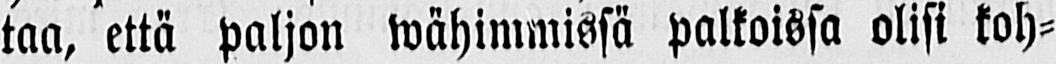taa, että paljon wähimmissä palkoissa olisi koh-
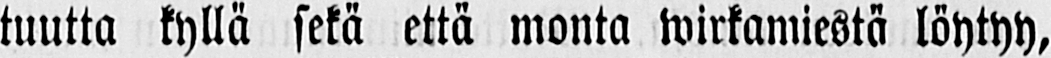tuutta kyllä sekä että monta wirkamiestä löytyy,
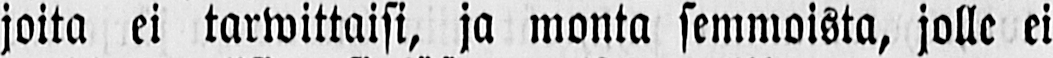joita ei tarwittaisi, ja monta semmoista, jolle ei
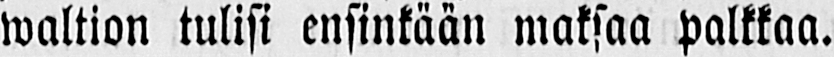waltion tulisi ensinkään maksaa palkkaa.
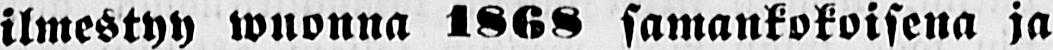ilmestyy wuonna 1868 samankokoisena ja
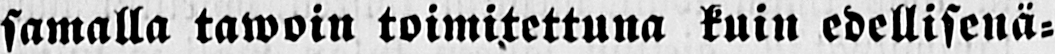samalla tawoin toimitettuna kuin edellisenä-
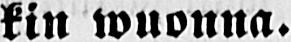kin wuonna.
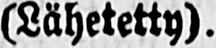(Lähetetty).
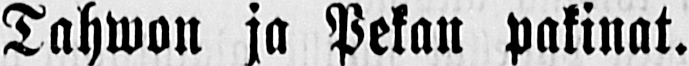Tahwon ja Pekan pakinat.
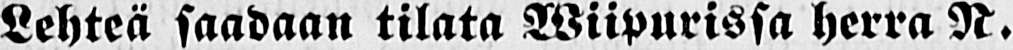Lehteä saadaan tilata Wiipurissa herra N.
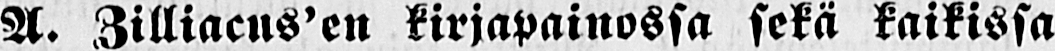A. Zilliacus'en kirjapainossa sekä kaikissa
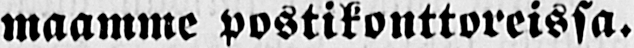maamme postikonttoreissa.
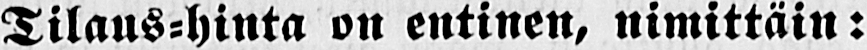Tilaus-hinta on entinen, nimittäin:
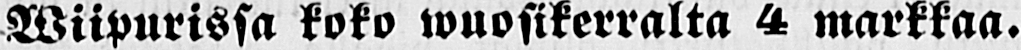Wiipurissa koko wuosikerralta 4 markkaa.
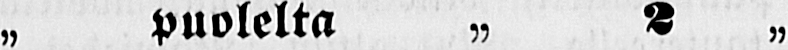„ puolelta „ 2 „
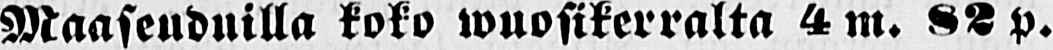Maaseuduilla koko wuosikerralta 4 m. 82 p.
